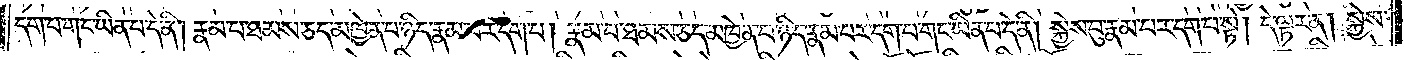དག་པ་གང་ཡིན་པ་དེ་ནི། རྣམ་པ་ཐམས་ཅད་མཁྱེན་པ་ཉིད་རྣམ་པར་དག་པ། རྣམ་པ་ཐམས་ཅད་མཁྱེན་པ་ཉིད་རྣམ་པར་དག་པ་གང་ཡིན་པ་དེ་ནི། སྐྱེས་བུ་རྣམ་པར་དག་པ་སྟེ། དེ་ལྟར་ན། སྐྱེས་
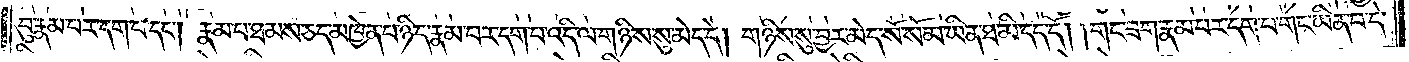བུ་རྣམ་པར་དག་པ་དང༌། རྣམ་པ་ཐམས་ཅད་མཁྱེན་པ་ཉིད་རྣམ་པར་དག་པ་འདི་ལ་གཉིས་སུ་མེད་དེ། གཉིས་སུ་བྱར་མེད་སོ་སོ་མ་ཡིན་ཐ་མི་དད་དོ། །གང་ཟག་རྣམ་པར་དག་པ་གང་ཡིན་པ་དེ་
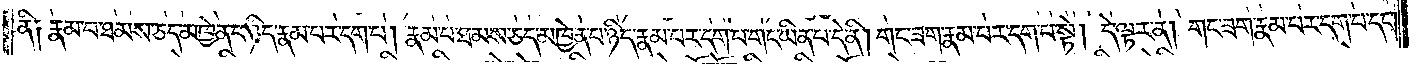ནི༑ རྣམ་པ་ཐམས་ཅད་མཁྱེན་པ་ཉིད་རྣམ་པར་དག་པ། རྣམ་པ་ཐམས་ཅད་མཁྱེན་པ་ཉིད་རྣམ་པར་དག་པ་གང་ཡིན་པ་དེ་ནི། གང་ཟག་རྣམ་པར་དག་པ་སྟེ། དེ་ལྟར་ན། གང་ཟག་རྣམ་པར་དག་པ་དང༌།
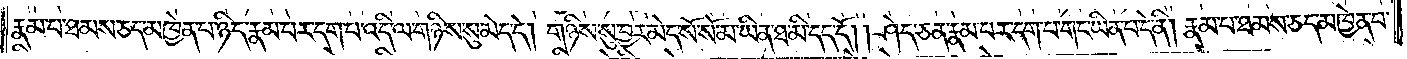རྣམ་པ་ཐམས་ཅད་མཁྱེན་པ་ཉིད་རྣམ་པར་དག་པ་འདི་ལ་གཉིས་སུ་མེད་དེ། གཉིས་སུ་བྱར་མེད་སོ་སོ་མ་ཡིན་ཐ་མི་དད་དོ། །ཤེད་ཅན་རྣམ་པར་དག་པ་གང་ཡིན་པ་དེ་ནི། རྣམ་པ་ཐམས་ཅད་མཁྱེན་པ་
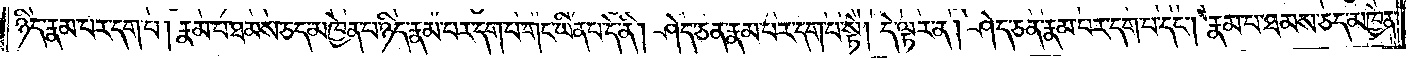ཉིད་རྣམ་པར་དག་པ། རྣམ་པ་ཐམས་ཅད་མཁྱེན་པ་ཉིད་རྣམ་པར་དག་པ་གང་ཡིན་པ་དེ་ནི། ཤེད་ཅན་རྣམ་པར་དག་པ་སྟེ། དེ་ལྟར་ན། ཤེད་ཅན་རྣམ་པར་དག་པ་དང༌། རྣམ་པ་ཐམས་ཅད་མཁྱེན་
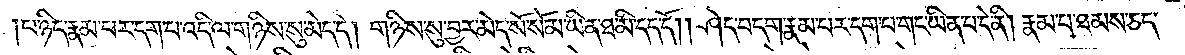པ་ཉིད་རྣམ་པར་དག་པ་འདི་ལ་གཉིས་སུ་མེད་དེ། གཉིས་སུ་བྱར་མེད་སོ་སོ་མ་ཡིན་ཐ་མི་དད་དོ། །ཤེད་བདག་རྣམ་པར་དག་པ་གང་ཡིན་པ་དེ་ནི། རྣམ་པ་ཐམས་ཅད་
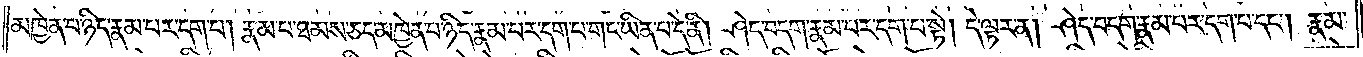མཁྱེན་པ་ཉིད་རྣམ་པར་དག་པ། རྣམ་པ་ཐམས་ཅད་མཁྱེན་པ་ཉིད་རྣམ་པར་དག་པ་གང་ཡིན་པ་དེ་ནི། ཤེད་བདག་རྣམ་པར་དག་པ་སྟེ། དེ་ལྟར་ན། ཤེད་བདག་རྣམ་པར་དག་པ་དང༌། རྣམ་
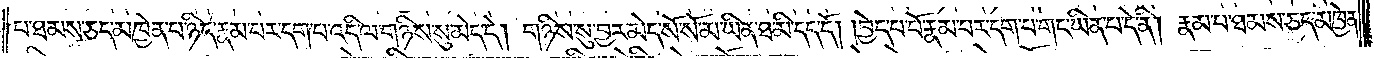པ་ཐམས་ཅད་མཁྱེན་པ་ཉིད་རྣམ་པར་དག་པ་འདི་ལ་གཉིས་སུ་མེད་དེ། གཉིས་སུ་བྱར་མེད་སོ་སོ་མ་ཡིན་ཐ་མི་དད་དོ། །བྱེད་པ་པོ་རྣམ་པར་དག་པ་གང་ཡིན་པ་དེ་ནི། རྣམ་པ་ཐམས་ཅད་མཁྱེན་
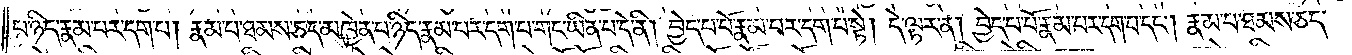པ་ཉིད་རྣམ་པར་དག་པ། རྣམ་པ་ཐམས་ཅད་མཁྱེན་པ་ཉིད་རྣམ་པར་དག་པ་གང་ཡིན་པ་དེ་ནི། བྱེད་པ་པོ་རྣམ་པར་དག་པ་སྟེ། དེ་ལྟར་ན། བྱེད་པ་པོ་རྣམ་པར་དག་པ་དང༌། རྣམ་པ་ཐམས་ཅད་
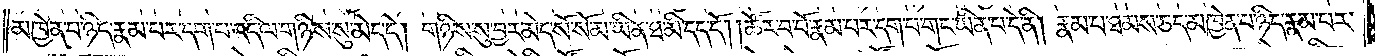མཁྱེན་པ་ཉིད་རྣམ་པར་དག་པ་འདི་ལ་གཉིས་སུ་མེད་དེ། གཉིས་སུ་བྱར་མེད་སོ་སོ་མ་ཡིན་ཐ་མི་དད་དོ། །ཚོར་བ་པོ་རྣམ་པར་དག་པ་གང་ཡིན་པ་དེ་ནི། རྣམ་པ་ཐམས་ཅད་མཁྱེན་པ་ཉིད་རྣམ་པར་
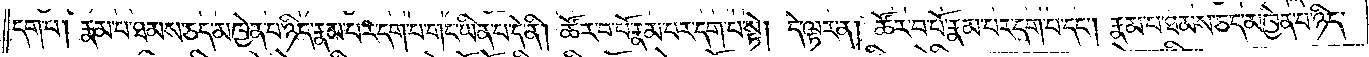དག་པ། རྣམ་པ་ཐམས་ཅད་མཁྱེན་པ་ཉིད་རྣམ་པར་དག་པ་གང་ཡིན་པ་དེ་ནི། ཚོར་བ་པོ་རྣམ་པར་དག་པ་སྟེ། དེ་ལྟར་ན། ཚོར་བ་པོ་རྣམ་པར་དག་པ་དང༌། རྣམ་པ་ཐམས་ཅད་མཁྱེན་པ་ཉིད་
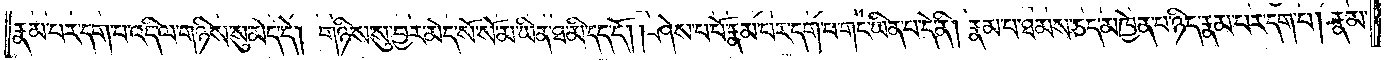རྣམ་པར་དག་པ་འདི་ལ་གཉིས་སུ་མེད་དེ། གཉིས་སུ་བྱར་མེད་སོ་སོ་མ་ཡིན་ཐ་མི་དད་དོ། །ཤེས་པ་པོ་རྣམ་པར་དག་པ་གང་ཡིན་པ་དེ་ནི། རྣམ་པ་ཐམས་ཅད་མཁྱེན་པ་ཉིད་རྣམ་པར་དག་པ། རྣམ་
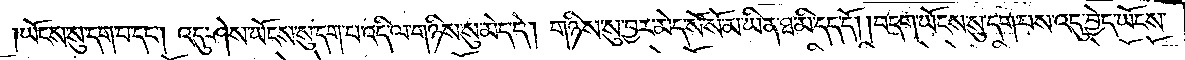ཡོངས་སུ་དག་པ་དང༌། འདུ་ཤེས་ཡོངས་སུ་དག་པ་འདི་ལ་གཉིས་སུ་མེད་དེ། གཉིས་སུ་བྱར་མེད་སོ་སོ་མ་ཡིན་ཐ་མི་དད་དོ། །བདག་ཡོངས་སུ་དག་པས་འདུ་བྱེད་ཡོངས་
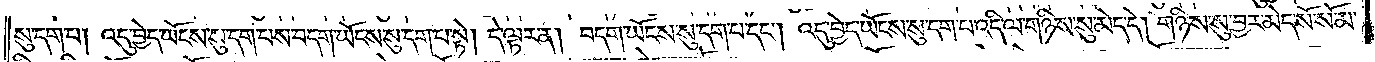སུ་དག་པ། འདུ་བྱེད་ཡོངས་སུ་དག་པས་བདག་ཡོངས་སུ་དག་པ་སྟེ། དེ་ལྟར་ན། བདག་ཡོངས་སུ་དག་པ་དང༌། འདུ་བྱེད་ཡོངས་སུ་དག་པ་འདི་ལ་གཉིས་སུ་མེད་དེ། གཉིས་སུ་བྱར་མེད་སོ་སོ་མ་
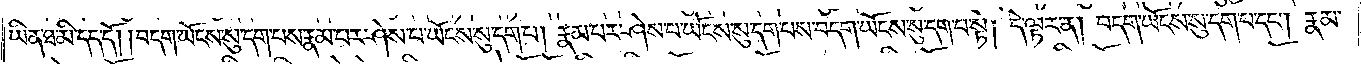ཡིན་ཐ་མི་དད་དོ། །བདག་ཡོངས་སུ་དག་པས་རྣམ་པར་ཤེས་པ་ཡོངས་སུ་དག་པ། རྣམ་པར་ཤེས་པ་ཡོངས་སུ་དག་པས་བདག་ཡོངས་སུ་དག་པ་སྟེ། དེ་ལྟར་ན། བདག་ཡོངས་སུ་དག་པ་དང༌། རྣམ་
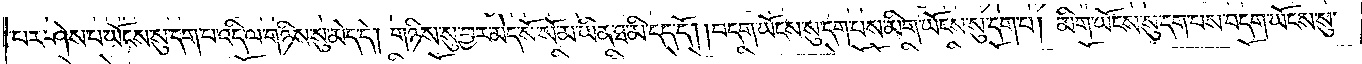པར་ཤེས་པ་ཡོངས་སུ་དག་པ་འདི་ལ་གཉིས་སུ་མེད་དེ། གཉིས་སུ་བྱར་མེད་སོ་སོ་མ་ཡིན་ཐ་མི་དད་དོ། །བདག་ཡོངས་སུ་དག་པས་མིག་ཡོངས་སུ་དག་པ། མིག་ཡོངས་སུ་དག་པས་བདག་ཡོངས་སུ་
